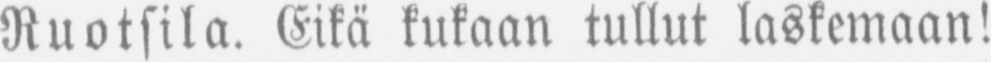Ruotsila. Eikä kukaan tullut laskemaan!
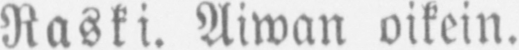Raski. Aiwan oikein.
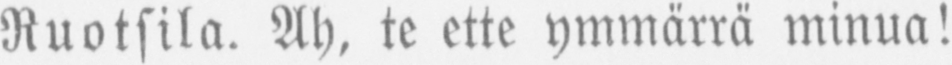Ruotsila. Ah, te ette ymmärrä minua!
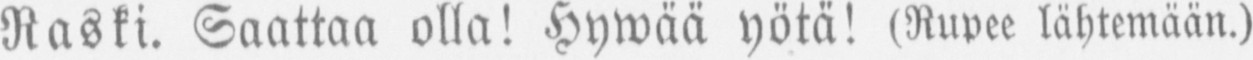Raski. Saattaa olla! Hywää yötä! (Rupee lähtemään.)
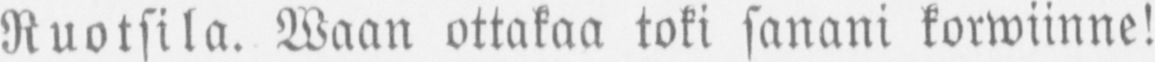Ruotsila. Waan ottakaa toki sanani korwinne!
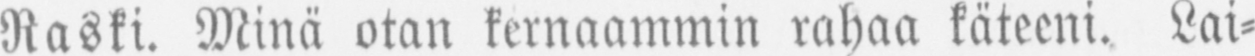Raski. Minä otan kernaammin rahaa käteeni. Lai-
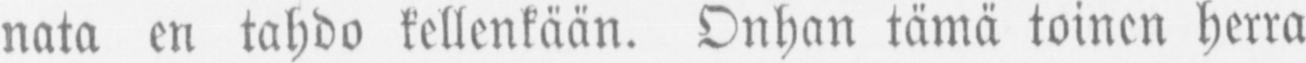nata en tahdo kellenkään. Onhan tämä toinen herra
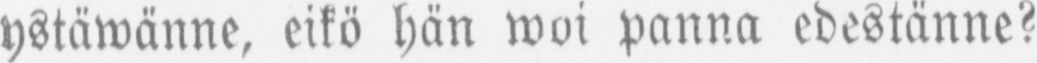ystäwänne, eikö hän woi panna edestänne?
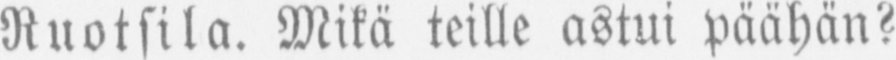Ruotsila. Mikä teille astui päähän?
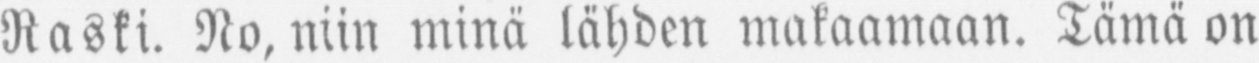Raski. No, niin minä lähden makaamaan. Tämä on
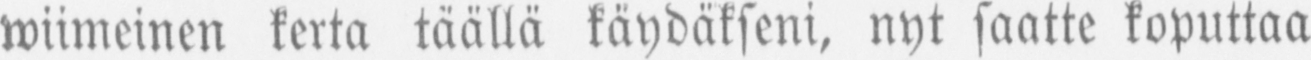wiimeinen kerta täällä käydäkseni, nyt saatte koputtaa
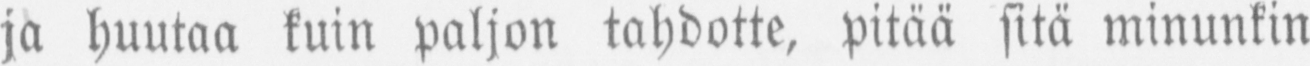ja huutaa kuin paljon tahdotte, pitää sitä minunkin
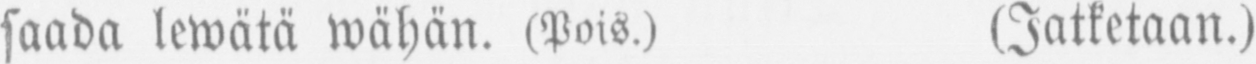saada lewätä wähän. (Pois.) (Jatketaan.)
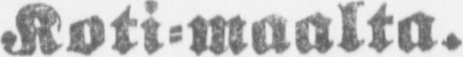Koti-maalta.
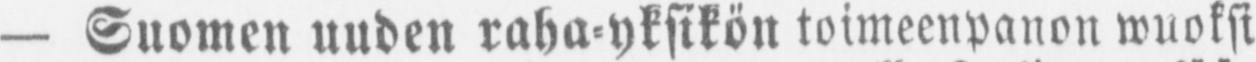— Suomen uuden raha-yksikön toimeenpanon wuoksi
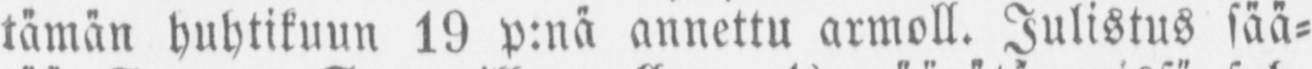tämän huhtikuun 19 p:nä annettu armoll. Julistus sää-
